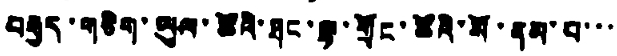བརྒྱད་གཅིག་ཡུལ་ཚོའི་ཐང་ལྷ་གྲོང་ཚོའི་སོ་ནམ་པ་་་
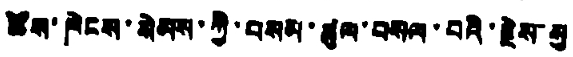ཚོས་ཁེངས་སེམས་ཀྱི་བསམ་ཚུལ་བསལ་བའི་རྗེས་སུ
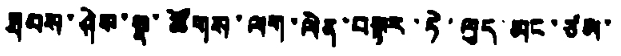ཐབས་ཤེས་སྣ་ཚོགས་ལག་ལེན་བསྟར་ཏེ་ལུད་མང་ཙམ་
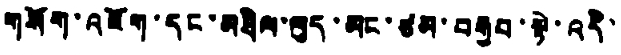གསོག་འཇོག་དང་མཐིལ་ལུད་མང་ཙམ་བརྒྱབ་སྟེ་འདི་
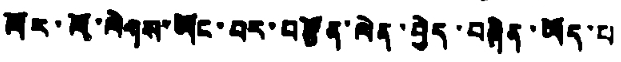ལོར་ལོ་ལེགས་ཡོང་བར་བརྩོན་ལེན་བྱེད་བཞིན་ཡོད་པ
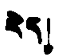རེད།
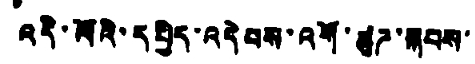འདི་ལོའི་དཔྱིད་འདེབས་འགོ་ཚུཌ་སྐབས་
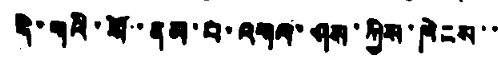དེ་གའི་སོ་་ནམ་པ་འགལ་ཤས་ཀྱིས་ཁེངས་་་
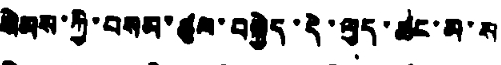སེམས་ཀྱི་བསམ་ཚུལ་བསྐྱེད་དེ་ལུད་ཚང་མ་ས
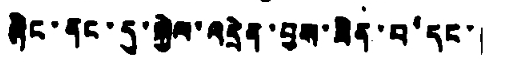ཞིང་ནང་དུ་སྐྱེལ་འདྲེན་བྱས་ཟིན་པ་དང་།
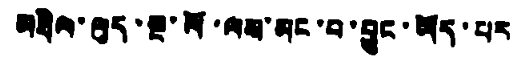མཐིལ་ལུད་སྔ་ལོ་ལམ་མང་བ་བྱུང་ཡོད་པར
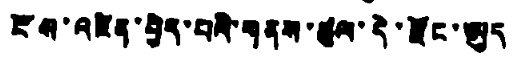ངོས་འཛིན་བྱེད་པའི་གནས་ཚུལ་དེ་རྫོང་ཨུད
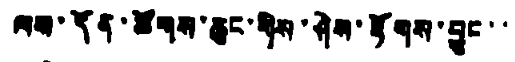ལས་དོན་ཚོགས་ཆུང་གིས་ཤེས་རྟོགས་བྱུང་་
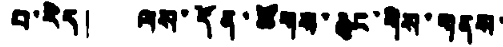བ་རེད། ལས་དོན་ཚོགས་ཆུང་གིས་གནས་
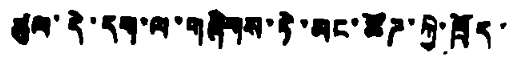ཚུལ་དེ་དག་ལ་གཞིགས་ཏེ་མང་ཚོཌ་ཀྱི་ཁྲོད་
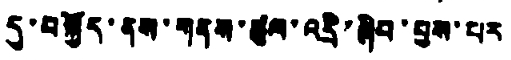དུ་བསྐྱོད་ནས་གནས་ཚུལ་འདྲི་ཞིབ་བྱས་པར
